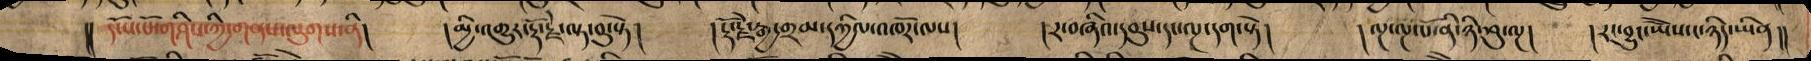།།དངོས་པོ་གཤིས་ཀྱི་གནས་ལུགས་ནི། །མྱི་འགྱུར་རྡོ་རྗེ་ལྟ་བུ་སྟེ། །རྡོ་རྗེ་རྒྱ་གྲམ་དཀྱིལ་འཁོར་ལས། །རང་བཞིན་དབུས་དང་ལྔ་དག་སྟེ། །ལྔ་ལྔ་པོ་ནི་ཉི་ཤུ་ལྔ། །རང་བྱུང་ཡཻས་ང་ཉིད་ཡིན།།
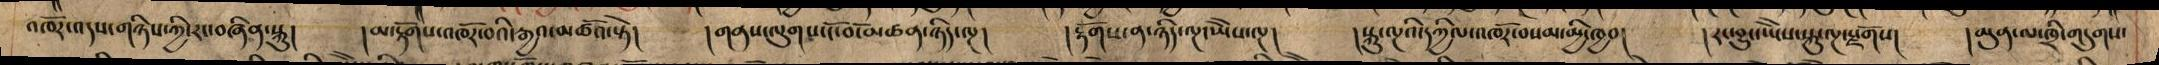འཁོར་འདས་གཉིས་ཀྱི་རང་བཞིན་སྐུ། །མ་རྟོགས་འཁོར་བའི་རྒྱའ་མཚོའ་སྟེ། །གནས་ལུགས་ངོ་བོ་མཚན་ཉིད་ལྔ། །རྟོགས་ན་ཉིད་ཡཻས་ལྔ། །སྐུ་ལྔའི་དཀྱིལ་འཁོར་བསམ་མྱི་ཁྱབ། །རང་བྱུང་ཡཻས་སྐུ་ལྔ་སྫོགས། །མུན་ལ་ཁྲི་གདུགས་
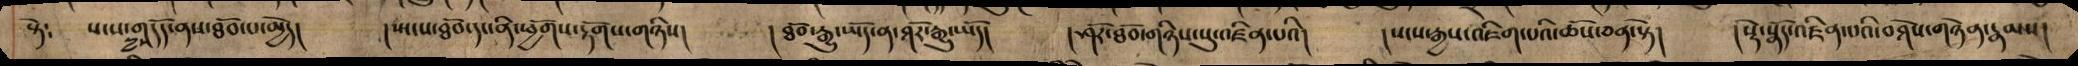སྟེ༴ སངས་གདོད་ནས་ཐོབ་པ་མྱེད། །སྤངས་ཐོབ་དང་ནི་ཕྱོགས་རྟོགས་གཉིས། །ཐོབ་རྒྱུ་ཡོད་བ་ཤོར་རྒྱུ་ཡོད། །ཤོར་ཐོབ་གཉིས་སུ་འཛིན་པའི། །སངས་རྒྱས་འཇིག་པའི་ཆོས་ཅན་སྟེ། །སྡེ་སྣོད་འཛིན་པའི་བཤེས་གཉེན་རྣམས།
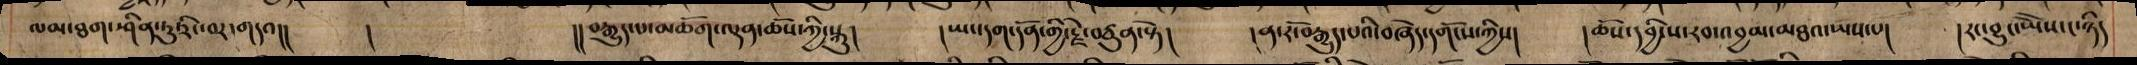ལམ་ཐག་ཤིན་ཏུ་རིང་བར་གདའ།། ། །།བརྒྱུད་པ་མཆོག་ལྡན་ཆོས་ཀྱི་སྐུ། །ཡང་དག་དོན་གྱི་རྗེ་བཙུན་སྟེ། །ན་རོ་བརྒྱུད་པའི་བཞེད་དགོངས་ཀྱིས། །ཆོས་དབྱིངས་རབ་འབྱམ་མཐའ་ཡས་པ། །རང་བྱུང་ཡཻས་ང་ཉིད
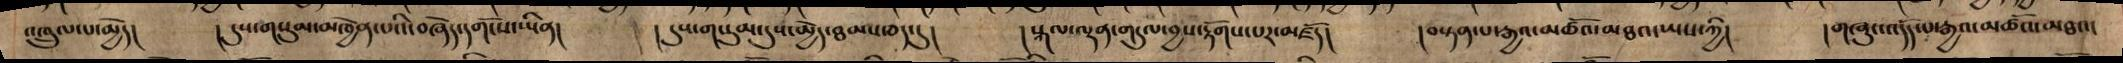འཁྲུལ་པ་མྱེད། །དུས་གསུམ་མཁྱེན་པའི་བཞེད་དགོངས་ཡིན། །དུས་གསུམ་དུས་མྱེད་ཐམས་ཅད་དུ། །སྐལ་ལྡན་གདུལ་བྱས་རྟོགས་པར་མཛོད། །བསྟན་པ་རྒྱའ་མཚོའ་མཐའ་ཡས་ཀྱི། །གཞུང་འདོད་པ་རྒྱའ་མཚོའ་མཐའ་
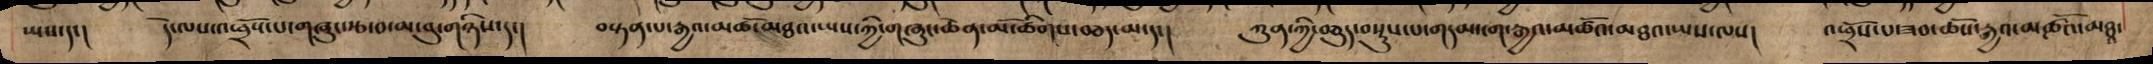ཡས་དང། དེ་ལས་འཕྲོས་པ་གཞུང་རྩ་བ་མ་བུ་གཉིས་དང། བསྟན་པ་རྒྱའ་མཚོ་མཐའ་ཡས་ཀྱི་གཞུང་ཆེན་མོ་ཚིགས་བཅད་མ་དང། ཀུན་ཀྱི་བཅུད་བསྡུས་པ་གདམ་ངག་རྒྱའ་མཚོའ་མཐའ་ཡས་ལས། འཕྲོས་པ་ཟབ་ཆོས་རྒྱའ་མཚོའ་མཐཱ་
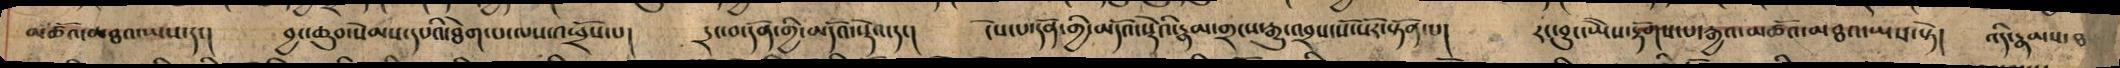མཚོའ་མཐའ་ཡས་དང། བྱང་ཆུབ་སེམས་དཔའི་ཐེག་པ་ལས་འཕྲོས་པ། དྲང་བ་དོན་གྱི་མདོའ་སྡེའ་དང། ངེས་པ་དོན་གྱི་མདོའ་སྡེའི་རྣམ་གྲངས་རྒྱུ་འབྲས་སོ་སོར་སྟོན་པ། རང་བྱུང་ཡཻས་རྟོགས་པ་རྒྱའ་མཚོའ་མཐའ་ཡས་སྟེ། འདི་རྣམས་ཐ
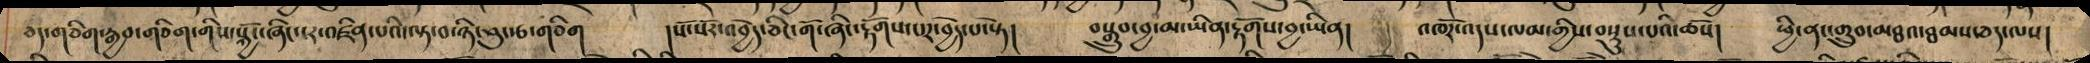ཅད་གཅིག་རྒྱབ་གཅིག་གིས་སྐྱོང་ཞིང་ངར་འཛིན་པའི་ལྟ་བ་ཉི་ཤུ་རྩ་གཅིག །སོ་སོར་འབྱེད་ཅིང་གོ་ཞིང་རྟོགས་པར་བྱེད་པ་སྟེ། བསྒྲུབ་བྱ་མ་ཡིན་རྟོགས་བྱ་ཡིན། འཁོར་འདས་ལམ་གྱིས་བསྡུས་པའི་ཆོས། ཕྱི་ནང་གྲུབ་མཐའ་ཐམས་ཅད་ལས།
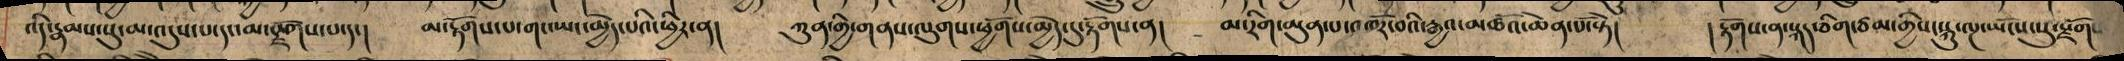འདི་རྣམས་སུ་མ་འདུས་པ་དང་མ་སྫོགས་པ་དང། མ་རྟོགས་པ་གང་ཡང་མྱེད་པའི་ཕྱིར་ན། ཀུན་གྱི་གནས་ལུགས་ཕྱོགས་མྱེད་དུ་རྟོགས་ན། མ་རིག་མུན་པ་འཁོར་བའི་རྒྱའ་མཚོའ་ཆེན་པོ་སྟེ། །རྟོགས་ན་སྐད་ཅིག་ཙམ་གྱིས་སྐུ་ལྔ་ཡོངས་སུ་སྫོགས
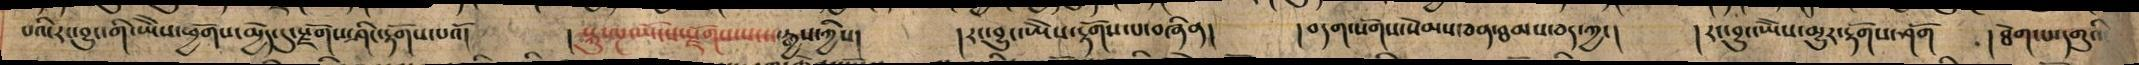པའི་རང་བྱུང་གི་ཡཻས་ཕྱོགས་མྱེ་དདུ་སྫོགས་ཤཱིང་རྟོགས་པའོ། །སྐུ་ལྔ་ཡོངས་སྫོགས་སངས་རྒྱས་ཀྱིས། །རང་བྱུང་ཡཻས་རྟོགས་པ་བཞིན། །བདག་སོགས་སེམས་ཅན་ཐམས་ཅད་ཀྱང། །རང་བྱུང་ཡཻས་མྱུར་རྟོགས་ཤོག །ཐེག་པ་དགུའི་
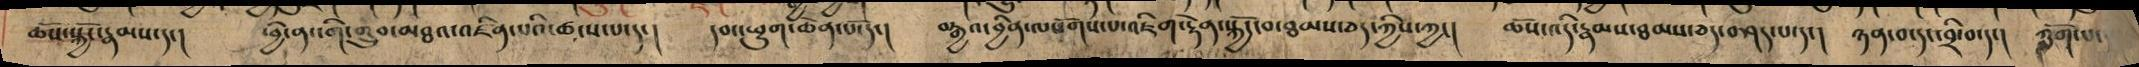ཆོས་སྐྱོང་རྣམས་དང། ཕྱི་ནང་གི་གྲུབ་མཐའ་འཛིན་པའི་ཚངས་པ་དང། དབང་ཕྱུག་ཆེན་པོ་དང། བརྒྱའ་བྱིན་ལསོགས་པ་འཇིག་རྟེན་སྐྱོང་བ་ཐམས་ཅད་ཀྱིས་ཀྱང། ཆོས་འདི་རྣམས་ཐམས་ཅད་བཤད་པ་དང། ཉན་བ་དང་བྲི་བ་དང། ཀློག་པ་
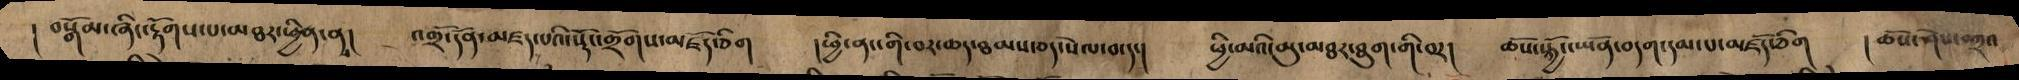། བསྒོམ་ཞིང་རྟོགས་པ་མཐར་ཕྱིན་ན། འགྲོ་དོན་མཛད་པའི་སྡོང་གྲོགས་མཛོད་ཅིག །ཕྱི་ནང་གི་བར་ཆད་ཐམས་ཅད་སེལ་བ་དང། ཕྱི་མའི་མུ་མཐའ་ཐུག་གི་བར། ཆོས་སྐྱོང་ཡོན་བདག་དམ་པ་མཛོད་ཅིག །ཆོས་ཤེས་བཀྲའ
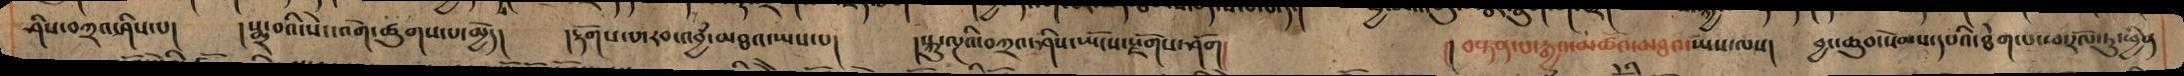ཤིས་བཀྲའ་ཤཱིས་པ། །སྨྲ་བའི་སེང་འགེ་ཚུགས་པ་མྱེད། །རྟོགས་པ་རབ་འབྱཾ་མཐའ་ཡས་པ། །སྐུ་ལྔའི་བཀྲའ་ཤཱིས་ཡོངས་སྫོགས་ཤོག། །།བསྟན་པ་རྒྱའ་མཚོའ་མཐའ་ཡས་ལས། བྱང་ཆུབ་སེམས་དཔའི་ཐེག་པ་ཕ་རོལ་ཏུ་ཕྱིན
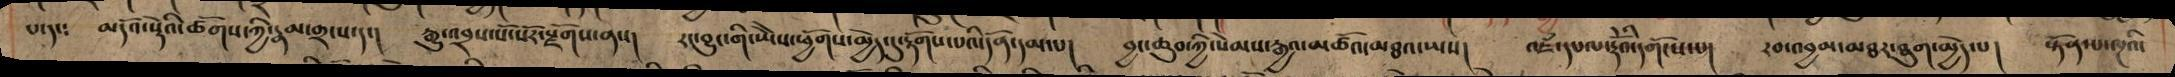པ་དང༴ མདོའ་སྡེའི་ཚོགས་ཀྱི་རྣམ་གྲངས་དང། རྒྱུ་འབྲས་སོ་སོར་སྫོགས་ནས། རང་བྱུང་ཡཻས་ཕྱོགས་མྱེད་དུ་རྟོགས་པའི་དོན་དམ་པ། བྱང་ཆུབ་ཀྱི་སེམས་རྒྱའ་མཚོའ་མཐའ་ཡས། འཇཾ་དཔལ་རྡོེའི་དགོངས་པ། རབ་འབྱམ་མཐར་ཐུག་མྱེད་པ། སྟོན་པ་ལྔའི་
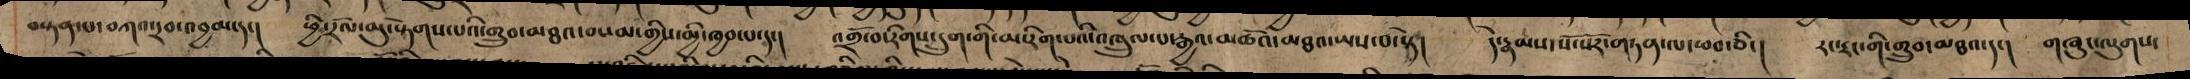བསྟན་པ་བཀའ་རབ་འབྱམ་དང། ཕྱི་རོལ་མུ་སྟེགས་པའི་གྲུབ་མཐའ་བསམ་གྱིས་མྱི་ཁྱབ་པ་དང། འགྲོ་བ་རིག་དྲུག་གི་མ་རིག་པའི་འཁྲུལ་པ་རྒྱའ་མཚོའ་མཐའ་ཡས་བ་སྟེ། དེ་རྣམས་སོ་སོར་གཏན་ལ་ཕབ་ཅིང། རང་རང་གི་གྲུབ་མཐའ་དང། གཞུང་ལུགས་
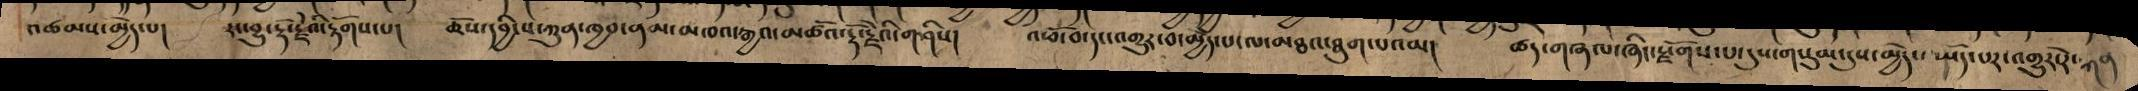འཚམས་མྱེད་པ། རང་བྱུང་རྡོ་རྗེའི་རྟོགས་པ། ཆོས་དབྱིངས་ཀུན་ཁྱབ་ནམ་མཁའ་རྒྱའ་མཚོའ་རྡོ་རྗེའི་གཤིས། འཕོ་བ་དང་འགྱུར་བ་མྱེད་པ་ལ་མཐའ་ཐུག་པའམ། ཚད་གཞལ་ཞིང་སྫོགས་པ་དུས་གསུམ་དུས་མྱེད་ཡོད་པར་འགྱུར་རེ་ཀན
